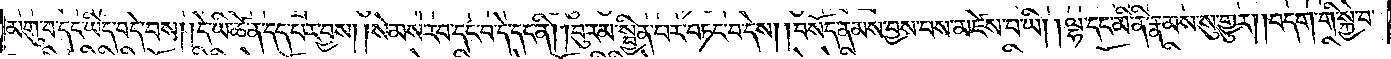མགུ་བ་དང་ཡིད་བདེ་བས། །དེ་ཡི་ཚེ་ན་དད་པར་བྱས། །སེམས་རབ་དང་བ་དེ་དང་ནི། །བུ་རམ་སྦྱིན་པར་བཏང་བ་དེས། །བསོད་ནམས་བྱས་པས་མཛེས་པ་ཡི། །ལྷ་དང་མི་ནི་རྣམས་སུ་གྱུར། །བདག་གི་སྐྱེ་བ་
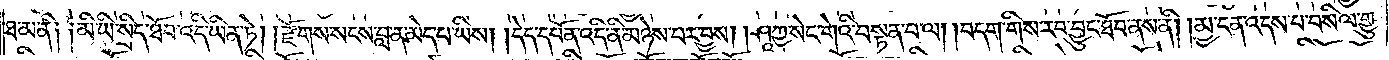ཐ་མ་ནི། །མི་ཡི་སྲིད་ཐོབ་འདི་ཡིན་ཏེ། །རྫོགས་སངས་བླ་ན་མེད་པ་ཡིས། །དེད་དཔོན་འདི་ནི་མཉེས་པར་བྱས། །ཤཱཀྱ་སེང་གེའི་བསྟན་པ་ལ། །བདག་གིས་རབ་བྱུང་ཐོབ་ནས་ནི། །མྱ་ངན་འདས་པ་བསིལ་གྱུ
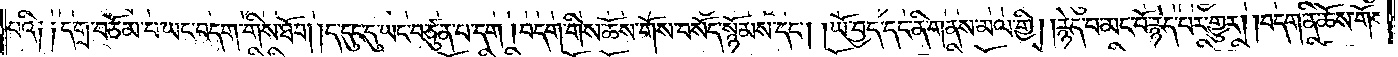པའི༑ ༑དགྲ་བཅོམ་པ་ཡང་བདག་གིས་ཐོབ། །ད་དུང་དུ་ཡང་བཙུན་པ་དག །བདག་གིས་ཆོས་གོས་བསོད་སྙོམས་དང༌། །ཡོ་བྱད་དང་ནི་གནས་མལ་གྱི། །རྙེད་པ་མང་པོ་རྙེད་པར་གྱུར། །བདག་ནི་ཆོས་གོས་
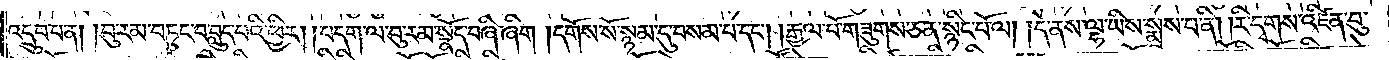འདྲུབ་པ་ན། །བུ་རམ་བཏུང་བ་བླུད་པའི་ཕྱིར། །བདག་ལ་བུ་རམ་སྣོད་བཞི་ཞིག །དགོས་སོ་སྙམ་དུ་བསམ་པ་དང༌། །རྒྱལ་པོ་གཟུགས་ཅན་སྙིང་པོ་ལ། །དེ་ནས་ལྷ་ཡིས་སྨྲས་པ་ནི། །རི་དྭགས་འཛིན་བུ་
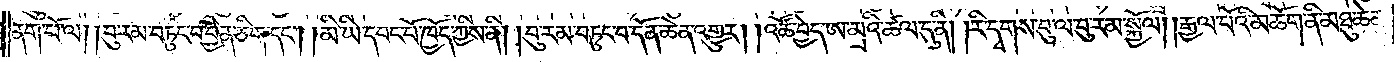ནག་པོ་ལ། །བུ་རམ་བཏུང་བ་བྱིན་ཅིག་དང༌། །མི་ཡི་དབང་པོ་ཁྱོད་ཀྱིས་ནི། །བུ་རམ་བཏུང་བ་དོན་ཆེན་འགྱུར། །འཚོ་བྱེད་ཨ་མྲའི་ཚལ་དུ་ནི། །རི་དྭགས་བུ་ལ་བུ་རམ་སྐྱོལ། །རྒྱལ་པོའི་མཆོག་ནི་མཐུ་ཆེན་
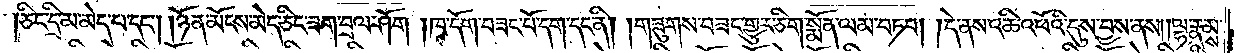།ཅིང་དྲི་མ་མེད་པ་དང༌། །ཉོན་མོངས་མེད་ཅིང་ཟག་བྲལ་ཤོག །ཁ་དོག་བཟང་པོ་དག་དང་ནི། །གཟུགས་བཟང་གྱུར་ཅིག་སྨོན་ལམ་བཏབ། །དེ་ནས་འཆི་འཕོའི་དུས་བྱས་ནས། །ལྷ་རྣམས་
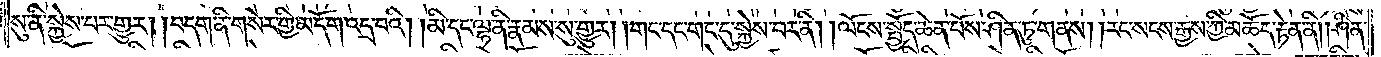སུ་ནི་སྐྱེས་པར་གྱུར། །བདག་ནི་གསེར་གྱི་མདོག་འདྲ་བའི། །མི་དང་ལྷ་ནི་རྣམས་སུ་གྱུར། །གང་དང་གང་དུ་སྐྱེས་བར་ནི། །ལོངས་སྤྱོད་ཆེན་པོས་ཤིན་ཏུ་གནས། །རང་སངས་རྒྱས་ཀྱི་མཆོད་རྟེན་ནི། །ཤིན་
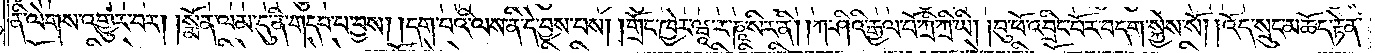ནི་ལེགས་འགྱུར་བར། །སྨོན་ལམ་དུ་ནི་གདབ་པ་བྱས། །དག་པའི་ལས་ནི་དེ་བྱས་པས། །གྲོང་ཁྱེར་ཝཱ་ར་ཎཱ་སིར་ནི། །ཀ་ཤིའི་རྒྱལ་པོ་ཀྲི་ཀྲི་ཡི། །བུ་ཕོ་འབྲིང་པོར་བདག་སྐྱེས་སོ། །འོད་སྲུང་མཆོད་རྟེན་
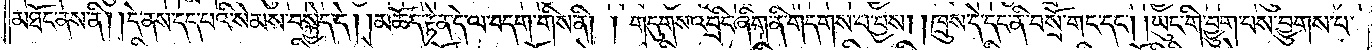མཐོང་ནས་ནི། །དེ་ནས་དད་པའི་སེམས་བསྐྱེད་དེ། །མཆོད་རྟེན་དེ་ལ་བདག་གིས་ནི། གདུགས་འབྲིང་ཞིག་ནི་གདགས་པ་བྱས། །ཁྲུས་དེ་དང་ནི་བསྲོ་གང་དང༌། །ཡུང་གི་བྱུག་པས་བྱུགས་པ་
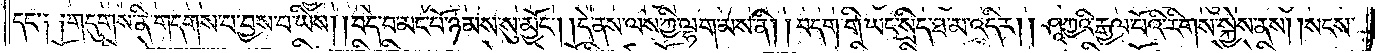དང་༑ ༑གདུགས་ནི་གདགས་པ་བྱས་པ་ཡི། །བདེ་བ་མང་པོ་ཉམས་སུ་མྱོང༌། །དེ་ནས་ལས་ཀྱི་ལྷག་མས་ནི། །བདག་གི་ཡང་སྲིད་ཐ་མ་འདིར། །ཤཱཀྱའི་རྒྱལ་པོའི་རིགས་སྐྱེས་ནས། །སངས་
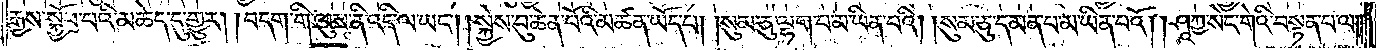རྒྱས་སྐྱོབ་པའི་མཆེད་དུ་གྱུར། །བདག་གི་ལུས་ནི་འདི་ལ་ཡང༌། །སྐྱེས་བུ་ཆེན་པོའི་མཚན་ཡོད་པ། །སུམ་ཅུ་ལྷག་པ་མ་ཡིན་པའི། །སུམ་ཅུ་དམན་པ་མ་ཡིན་པའོ། །ཤཱཀྱ་སེང་གེའི་བསྟན་པ་ལ༎
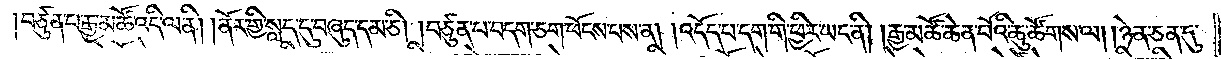བཙུན་པ་རྒྱ་མཚོ་འདི་ལ་ནི། །ནོར་གྱི་སླད་དུ་བཞུད་དམ་ཅི། །བཙུན་པ་བདག་ཅག་ཕོངས་པས་ན། །འདོད་པ་དག་གི་ཕྱིར་ཡང་ནི། །རྒྱ་མཚོ་ཆེན་པོའི་ཚུ་ཚོགས་ལ། །ཉེན་ཅན་དུ་
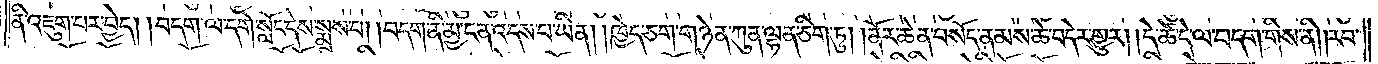ནི་འཇུག་པར་བྱེད། །བདག་ལ་དགེ་སློང་དེས་སྨྲས་པ། །བདག་ནི་མྱ་ངན་འདས་པ་ཡིན། །ཁྱེད་ཅག་གཉེན་ཀུན་ལྷན་ཅིག་ཏུ། །ནོར་ཆེན་བསོད་ནམས་ཆེ་བདེར་གྱུར། །དེ་ཚེ་དེ་ལ་བདག་གིས་ནི། །རབ་
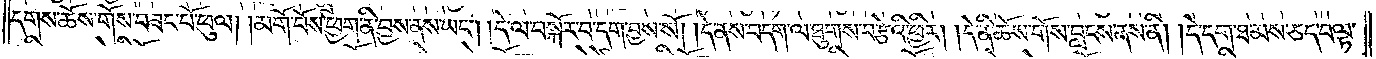དགས་ཆོས་གོས་བཟང་པོ་ཕུལ། །མགོ་བོས་ཕྱག་ནི་བྱས་ནས་ཡང༌། །དེ་ལ་བསྐོར་བ་དག་བྱས་སོ། །དེ་ནས་བདག་ལ་ཐུགས་བརྩེའི་ཕྱིར། །དེ་ནི་ཆོས་གོས་བླངས་ནས་ནི། །དེ་དག་ཐམས་ཅད་བལྟ་
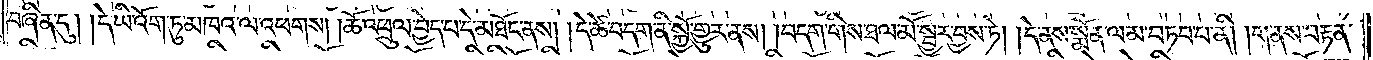བཞིན་དུ། །དེ་ཡི་འོག་ཏུ་མཁའ་ལ་འཕགས། །ཆོ་འཕྲུལ་བྱེད་པ་དེ་མཐོང་ནས། །དེ་ཚེ་བདག་ནི་སྐྱོ་གྱུར་ནས། །བདག་གིས་ཐལ་མོ་སྦྱར་བྱས་ཏེ། །དེ་ནས་སྨོན་ལམ་བཏབ་པ་ནི། །གནས་བརྟན་
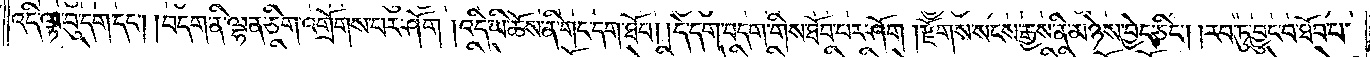འདི་ལྟ་བུ་དག་དང༌། །བདག་ནི་ལྷན་ཅིག་འགྲོགས་པར་ཤོག །འདི་ཡི་ཆོས་ནི་གང་དག་ཐོབ། །དེ་དག་བདག་གིས་ཐོབ་པར་ཤོག །རྫོགས་སངས་རྒྱས་ནི་མཉེས་བྱེད་ཅིང༌། །རབ་ཏུ་བྱུང་བ་ཐོབ་པ་
